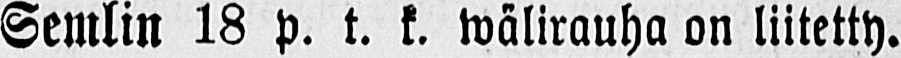Semlin 18 p. t. k. wälirauha on liitetty.
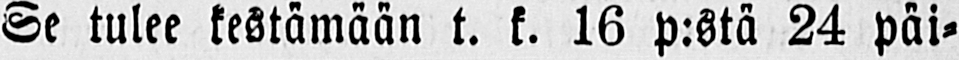Se tulee kestämään t. k. 16 p:stä 24 päi-
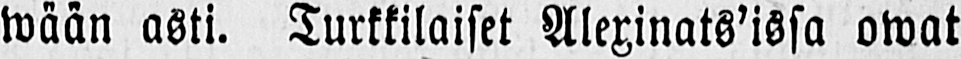wään asti. Turkkilaiset Alexinats'issa owat
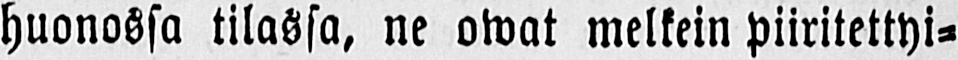huonossa tilassa, ne owat melkein piiritettyi-
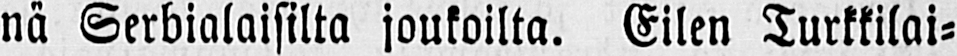nä Serbialaisilta joukoilta. Eilen Turkkilai-
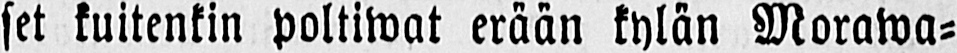set kuitenkin poltliwat erään kylän Morawa-
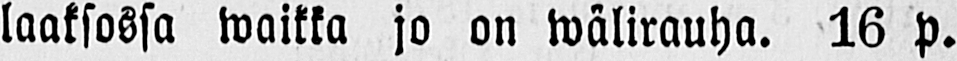laaksossa waikka jo on wälirauha. 16 p.
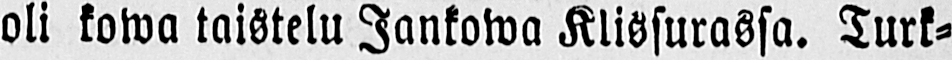oli kowa taistelu Jankowa Klissurassa. Turk-
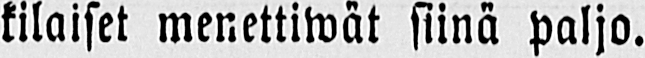kilaiset menettiwät siinä paljo.
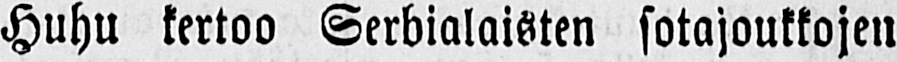Huhu kertoo Serbialaisten sotajoukkojen
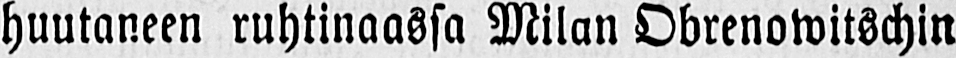huutaneen ruhtinaassa Milan Obrenowitschin
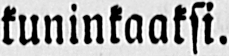kuninkaaksi.
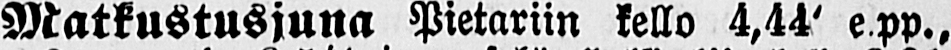Matkustusjuna Pietariin kello 4,44’ e.pp.,
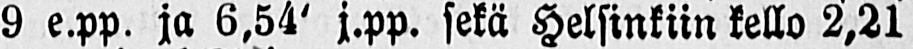9 e.pp. ja 6,54’ j.pp. sekä Helsinkiin kello 2,21
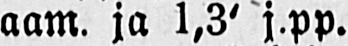aam. ja 1,3’ j.pp.
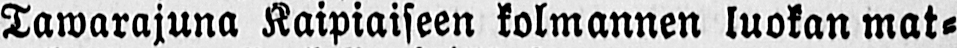Tawarajuna Kaipiaiseen kolmannen luokan mat-
